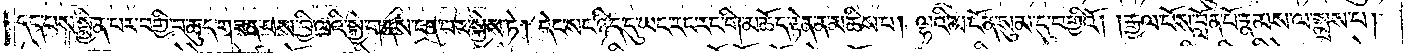དད་པས་སྦྱིན་པར་བགྱི་བ་ཆུད་གཟན་པས་བྱི་ལའི་སྐྱེ་གནས་ངན་པར་སྐྱེས་ཏེ། དེང་སང་ཉིད་དུ་ཡང་རང་རང་གི་མཆོད་རྟེན་ན་མཆིས་པ། ལྷའི་མངོན་སུམ་དུ་བགྱིའོ། །རྒྱལ་པོས་བློན་པོ་རྣམས་ལ་སྨྲས་པ།
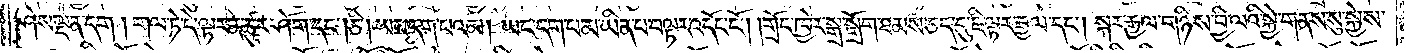ཤེས་ལྡན་དག །གལ་ཏེ་དེ་ལྟར་ན་ཚུར་ཤོག་དང༌། ཅི། ཡང་དག་པའམ། ཡང་དག་པ་མ་ཡིན་པ་བལྟར་འདོང་ངོ༌། །གྲོང་ཁྱེར་སྒྲ་སྒྲོག་ཐམས་ཅད་དུ་ཇི་ལྟར་རྒྱལ་དང༌། སྐར་རྒྱལ་གཉིས་བྱི་ལའི་སྐྱེ་གནས་སུ་སྐྱེས་
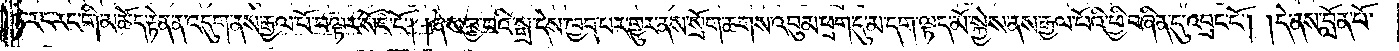ཏེ་རང་རང་གི་མཆོད་རྟེན་ན་འདུག་ནས་རྒྱལ་པོ་བལྟར་སོང་ངོ༌། །ཞེས་བྱ་བའི་སྒྲ་དེས་ཁྱབ་པར་གྱུར་ནས་སྲོག་ཆགས་འབུམ་ཕྲག་དུ་མ་དག་ལྟད་མོ་སྐྱེས་ནས་རྒྱལ་པོའི་ཕྱི་བཞིན་དུ་འབྲང་ངོ༌། །དེ་ནས་བློན་པོ་
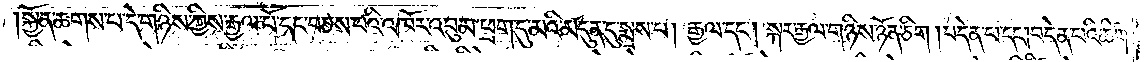།སྐྱོན་ཆགས་པ་དེ་གཉིས་ཀྱིས་རྒྱལ་པོ་དང་བཅས་པའི་འཁོར་འབུམ་ཕྲག་དུ་མའི་མདུན་དུ་སྨྲས་པ། རྒྱལ་དང༌། སྐར་རྒྱལ་གཉིས་ཉོན་ཅིག །བདེན་པ་དང་བདེན་པའི་ཚིག་
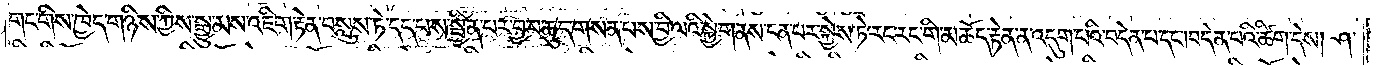གང་གིས་ཁྱེད་གཉིས་ཀྱིས་སྒྱུ་མས་འཇིག་རྟེན་བསླུས་ཏེ་དད་པས་སྦྱིན་པར་བྱ་བ་ཆུད་གསན་པས་བྱི་ལའི་སྐྱེ་གནས་ངན་པར་སྐྱེས་ཏེ་རང་རང་གི་མཆོད་རྟེན་ན་འདུག་པའི་བདེན་པ་དང༌།བདེན་པའི་ཚིག་དེས། ཤ་
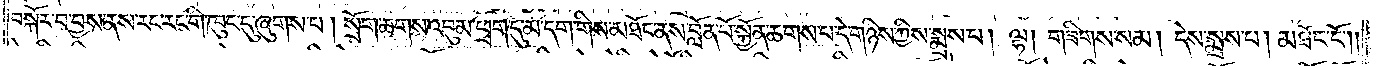བསྐོར་བ་བྱས་ནས་རང་རང་གི་ཁུང་དུ་ཞུགས་པ། སྲོག་ཆགས་འབུམ་ཕྲག་དུ་མ་དག་གིས་མཐོང་ནས་བློན་པོ་སྐྱོན་ཆགས་པ་དེ་གཉིས་ཀྱིས་སྨྲས་པ། ལྷ། གཟིགས་སམ། དེས་སྨྲས་པ། མཐོང་ངོ༌༎
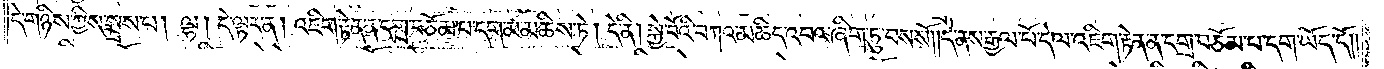དེ་གཉིས་ཀྱིས་སྨྲས་པ། ལྷ། དེ་ལྟར་ན། འཇིག་རྟེན་ན་དགྲ་བཅོམ་པ་དག་མ་མཆིས་ཏེ། དེ་ནི། སྐྱེ་བོའི་བཀའ་མཆིད་འབའ་ཞིག་ཏུ་བས་སོ། །དེ་ནས་རྒྱལ་པོ་དེ་ལ་འཇིག་རྟེན་ན་དགྲ་བཅོམ་པ་དག་ཡོད་དོ༎
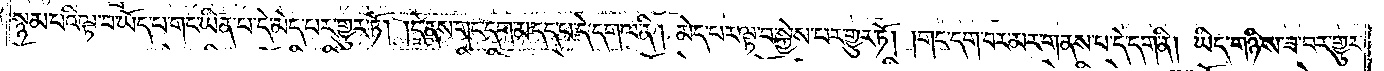སྙམ་པའི་ལྟ་བ་ཡོད་པ་གང་ཡིན་པ་དེ་མེད་པར་གྱུར་ཏོ། །དེ་ནས་གང་དག་མ་དད་པ་དེ་དག་ལ་ནི། མེད་པར་ལྟ་བ་སྐྱེས་པར་གྱུར་ཏོ། །གང་དག་བར་མར་གནས་པ་དེ་དག་ནི། ཡིད་གཉིས་ཟ་བར་གྱུར་
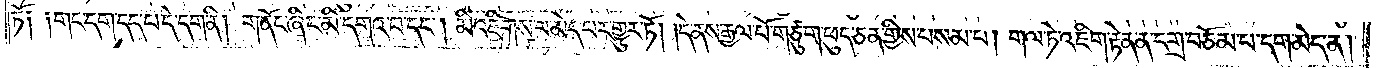ཏོ༑ ༑གང་དག་དད་པ་དེ་དག་ནི། གནོང་ཞིང་མི་དགའ་བ་དང༌། མི་འཇིགས་པ་མེད་པར་གྱུར་ཏོ། །དེ་ནས་རྒྱལ་པོ་གཙུག་ཕུད་ཅན་གྱིས་བསམ་པ། གལ་ཏེ་འཇིག་རྟེན་ན་དགྲ་བཅོམ་པ་དག་མེད་ན།
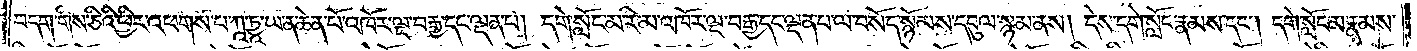བདག་གིས་ཅིའི་ཕྱིར་འཕགས་པ་ཀཱ་ཏྱཱ་ཡ་ན་ཆེན་པོ་འཁོར་ལྔ་བརྒྱ་དང་ལྡན་པ། དགེ་སློང་མ་རི་མ་འཁོར་ལྔ་བརྒྱ་དང་ལྡན་པ་ལ་བསོད་སྙོམས་དབུལ་སྙམ་ནས། དེས་དགེ་སློང་རྣམས་དང༌། དགེ་སློང་མ་རྣམས་
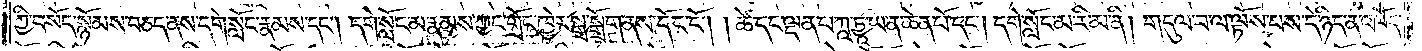ཀྱི་བསོད་སྙོམས་བཅད་ནས་དགེ་སློང་རྣམས་དང༌། དགེ་སློང་མ་རྣམས་ཀྱང་གྲོང་ཁྱེར་སྒྲ་སྒྲོག་ནས་དོང་ངོ༌། །ཚེ་དང་ལྡན་པ་ཀཱ་ཏྱཱ་ཡ་ན་ཆེན་པོ་དང༌། དགེ་སློང་མ་རི་མ་ནི། གདུལ་བ་ལ་ལྟོས་པས་དེ་ཉིད་ན་འཁོད་
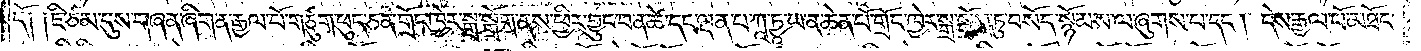དོ༑ ༑ཇི་ཙམ་དུས་གཞན་ཞིག་ན་རྒྱལ་པོ་གཙུག་ཕུད་ཅན་གྲོང་ཁྱེར་སྒྲ་སྒྲོག་ནས་ཕྱིར་བྱུང་བ་ན་ཚེ་དང་ལྡན་པ་ཀཱ་ཏྱཱ་ཡ་ན་ཆེན་པོ་གྲོང་ཁྱེར་སྒྲ་སྒྲོག་ཏུ་བསོད་སྙོམས་ལ་ཞུགས་པ་དང༌། དེས་རྒྱལ་པོ་མཐོང་
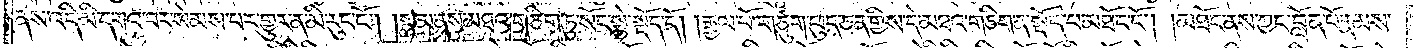ནས་འདི་མི་དགའ་བར་སེམས་པར་གྱུར་ན་མི་རུང་ངོ༌། །སྙམ་ནས་མཐའ་གཅིག་ཏུ་སོང་སྟེ་སྡོད་དོ། །རྒྱལ་པོ་གཙུག་ཕུད་ཅན་གྱིས་དེ་མཐའ་གཅིག་ན་སྡོད་པ་མཐོང་ངོ༌། །མཐོང་ནས་ཀྱང་བློན་པོ་རྣམས་
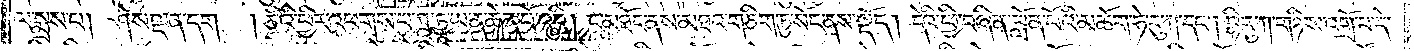ལ་སྨྲས་པ། ཤེས་ལྡན་དག །ཅིའི་ཕྱིར་འཕགས་པ་ཀཱ་ཏྱཱ་ཡ་ན་ཆེན་པོ་འདི། ང་མཐོང་ནས་མཐའ་གཅིག་ཏུ་སོང་ནས་སྡོད། དེའི་ཕྱི་བཞིན་བློན་པོའི་མཆོག་ཧེ་རུ་ཀ་དང༌། བྷི་རུ་ཀ་གཉིས་འགྲོ་བ་དེ་
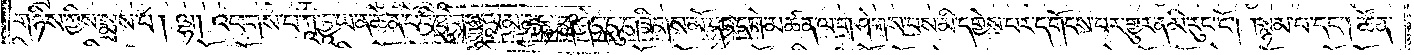གཉིས་ཀྱིས་སྨྲས་པ། ལྷ། འཕགས་པ་ཀཱ་ཏྱཱ་ཡ་ན་ཆན་པོའི་ཐུགས་ལམ་ན་ལྷ་གཤེད་དུ་གཟིགས་མོ་དང་དགེ་མཚན་ལ་གཤེགས་པས་མི་དགྱེས་པར་དགོངས་པར་གྱུར་ན་མི་རུང་ངོ༌། །སྙམ་པ་དང༌། ཚོན་
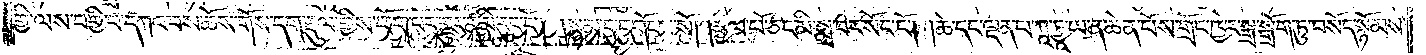གྱི་ལས་བགྱི་བ་དཀའ་བས་ཆོས་གོས་དག་རྡུལ་གྱིས་ཕོག་པར་གྱུར་ན་མི་རུང་ངོ༌། །སྙམ་དུ་དགོངས་སོ། །རྒྱལ་པོ་ཅང་མི་སྨྲ་བར་སོང་ངོ༌། །ཚེ་དང་ལྡན་པ་ཀཱ་ཏྱཱ་ཡ་ན་ཆེན་པོས་གྲོང་ཁྱེར་སྒྲ་སྒྲོག་ཏུ་བསོད་སྙོམས་
